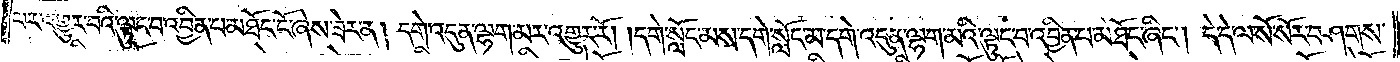པར་འགྱུར་བའི་ལྟུང་བ་འབྱིན་པ་མཐོང་ངོ་ཞེས་ཟེར་ན། དགེ་འདུན་ལྷག་མར་འགྱུར་རོ། །དགེ་སློང་མས་དགེ་སློང་མ་དགེ་འདུན་ལྷག་མའི་ལྟུང་བ་འབྱིན་པ་མཐོང་ཞིང༌། དེ་དེ་ལ་སོ་སོར་བཤགས་
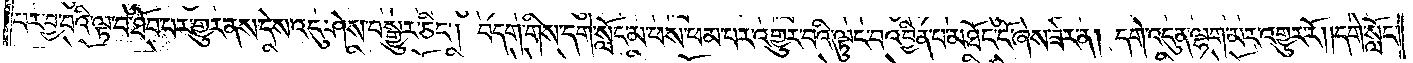པར་བྱ་བའི་ལྟ་བ་ཐོབ་པར་གྱུར་ནས་དེས་འདུ་ཤེས་བསྒྱུར་ཅིང༌། བདག་གིས་དགེ་སློང་མ་ཕས་ཕམ་པར་འགྱུར་བའི་ལྟུང་བ་འབྱིན་པ་མཐོང་ངོ་ཞེས་ཟེར་ན། དགེ་འདུན་ལྷག་མར་འགྱུར་རོ། །དགེ་སློང་
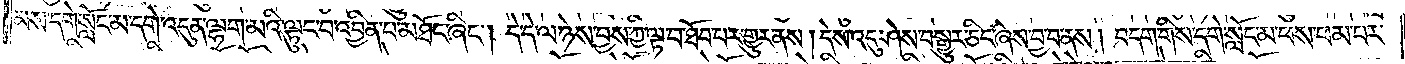མས་དགེ་སློང་མ་དགེ་འདུན་ལྷག་མའི་ལྟུང་བ་འབྱིན་པ་མཐོང་ཞིང༌། དེ་དེ་ལ་ཉེས་བྱས་ཀྱི་ལྟ་བ་ཐོབ་པར་འགྱུར་ནས། དེས་འདུ་ཤེས་བསྒྱུར་ཅིང་ཞེས་བྱ་བ་ནས། བདག་གིས་དགེ་སློང་མ་ཕས་ཕམ་པར་
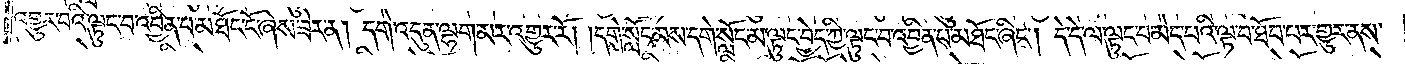འགྱུར་བའི་ལྟུང་བ་འབྱིན་པ་མཐོང་ངོ་ཞེས་ཟེར་ན། དགེ་འདུན་ལྷག་མར་འགྱུར་རོ། །དགེ་སློང་མས་དགེ་སློང་མ་ལྟུང་བྱེད་ཀྱི་ལྟུང་བ་འབྱིན་པ་མཐོང་ཞིང༌། དེ་དེ་ལ་ལྟུང་བ་མེད་པའི་ལྟ་བ་ཐོབ་པར་གྱུར་ནས་
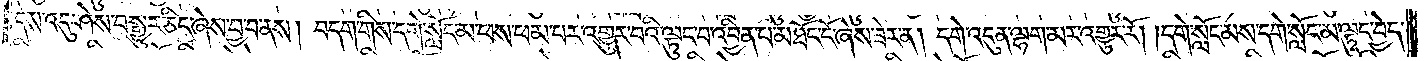དེས་འདུ་ཤེས་བསྒྱུར་ཅིང་ཞེས་བྱ་བ་ནས། བདག་གིས་དགེ་སློང་མ་ཕས་ཕམ་པར་འགྱུར་བའི་ལྟུང་བ་འབྱིན་པ་མཐོང་ངོ་ཞེས་ཟེར་ན། དགེ་འདུན་ལྷག་མར་འགྱུར་རོ། །དགེ་སློང་མས་དགེ་སློང་མ་ལྟུང་བྱེད་
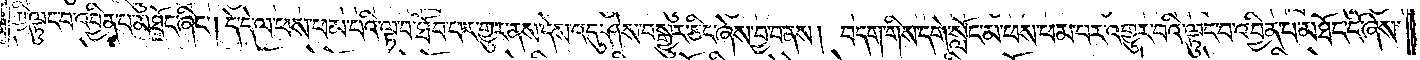ཀྱི་ལྟུང་བ་འབྱིན་པ་མཐོང་ཞིང༌། དེ་དེ་ལ་ཕས་ཕམ་པའི་ལྟ་བ་ཐོབ་པར་གྱུར་ནས་དེས་འདུ་ཤེས་བསྒྱུར་ཅིང་ཞེས་བྱ་བ་ནས། བདག་གིས་དགེ་སློང་མ་ཕས་ཕམ་པར་འགྱུར་བའི་ལྟུང་བ་འབྱིན་པ་མཐོང་ངོ་ཞེས་
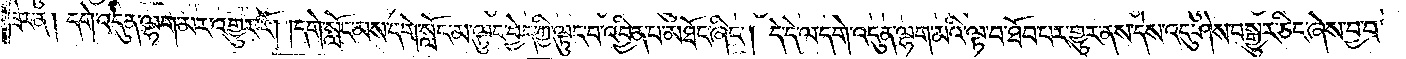ཟེར་ན། དགེ་འདུན་ལྷག་མར་འགྱུར་རོ། །དགེ་སློང་མས་དགེ་སློང་མ་ལྟུང་བྱེད་ཀྱི་ལྟུང་བ་འབྱིན་པ་མཐོང་ཞིང༌། དེ་དེ་ལ་དགེ་འདུན་ལྷག་མའི་ལྟ་བ་ཐོབ་པར་གྱུར་ནས་དེས་འདུ་ཤེས་བསྒྱུར་ཅིང་ཞེས་བྱ་བ་
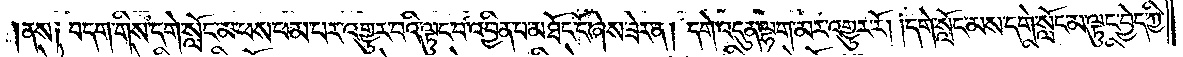ནས། བདག་གིས་དགེ་སློང་མ་ཕས་ཕམ་པར་འགྱུར་བའི་ལྟུང་བ་འབྱིན་པ་མཐོང་ངོ་ཞེས་ཟེར་ན། དགེ་འདུན་ལྷག་མར་འགྱུར་རོ། །དགེ་སློང་མས་དགེ་སློང་མ་ལྟུང་བྱེད་ཀྱི་
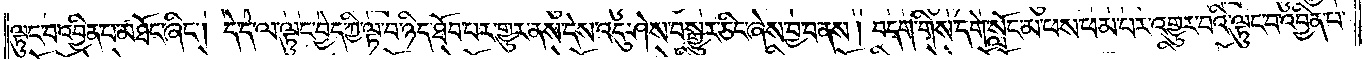ལྟུང་བ་འབྱིན་པ་མཐོང་ཞིང༌། དེ་དེ་ལ་ལྟུང་བྱེད་ཀྱི་ལྟ་བ་ཉིད་ཐོབ་པར་གྱུར་ནས་དེས་འདུ་ཤེས་བསྒྱུར་ཅིང་ཞེས་བྱ་བ་ནས། བདག་གིས་དགེ་སློང་མ་ཕས་ཕམ་པར་འགྱུར་བའི་ལྟུང་བ་འབྱིན་པ་
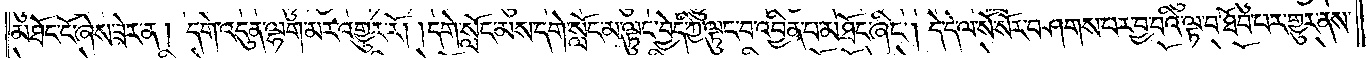མཐོང་ངོ་ཞེས་ཟེར་ན། དགེ་འདུན་ལྷག་མར་འགྱུར་རོ། །དགེ་སློང་མས་དགེ་སློང་མ་ལྟུང་བྱེད་ཀྱི་ལྟུང་བ་འབྱིན་པ་མཐོང་ཞིང༌། དེ་དེ་ལ་སོ་སོར་བཤགས་པར་བྱ་བའི་ལྟ་བ་ཐོབ་པར་གྱུར་ནས་
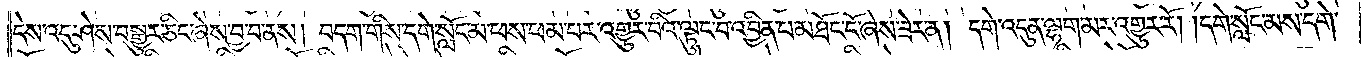དེས་འདུ་ཤེས་བསྒྱུར་ཅིང་ཞེས་བྱ་བ་ནས། བདག་གིས་དགེ་སློང་མ་ཕས་ཕམ་པར་འགྱུར་བའི་ལྟུང་བ་འབྱིན་པ་མཐོང་ངོ་ཞེས་ཟེར་ན། དགེ་འདུན་ལྷག་མར་འགྱུར་རོ། །དགེ་སློང་མས་དགེ་
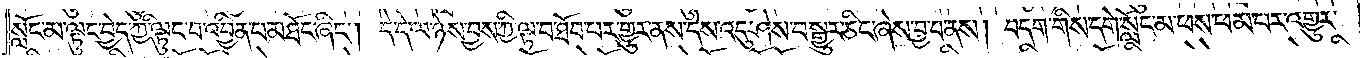སློང་མ་ལྟུང་བྱེད་ཀྱི་ལྟུང་བ་འབྱིན་པ་མཐོང་ཞིང༌། དེ་དེ་ལ་ཉེས་བྱས་ཀྱི་ལྟ་བ་ཐོབ་པར་གྱུར་ནས་དེས་འདུ་ཤེས་བསྒྱུར་ཅིང་ཞེས་བྱ་བ་ནས། བདག་གིས་དགེ་སློང་མ་ཕས་ཕམ་པར་འགྱུར་
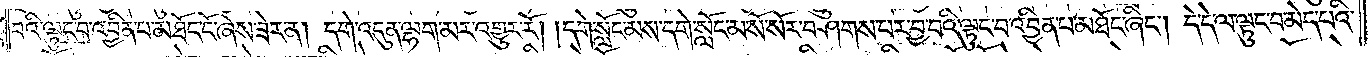བའི་ལྟུང་བ་འབྱིན་པ་མཐོང་ངོ་ཞེས་ཟེར་ན། དགེ་འདུན་ལྷག་མར་འགྱུར་རོ། །དགེ་སློང་མས་དགེ་སློང་མ་སོ་སོར་བཤགས་པར་བྱ་བའི་ལྟུང་བ་འབྱིན་པ་མཐོང་ཞིང༌། དེ་དེ་ལ་ལྟུང་བ་མེད་པའི་
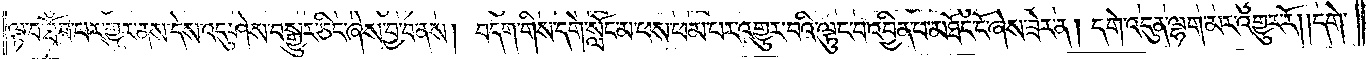ལྟ་བ་ཐོབ་པར་གྱུར་ནས་དེས་འདུ་ཤེས་བསྒྱུར་ཅིང་ཞེས་བྱ་བ་ནས། བདག་གིས་དགེ་སློང་མ་ཕས་ཕམ་པར་འགྱུར་བའི་ལྟུང་བ་འབྱིན་པ་མཐོང་ངོ་ཞེས་ཟེར་ན། དགེ་འདུན་ལྷག་མར་འགྱུར་རོ། །དགེ་
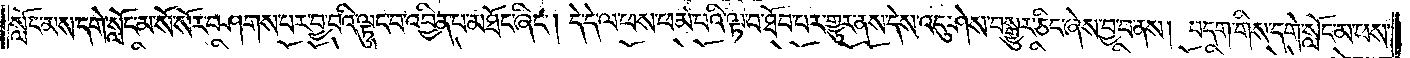སློང་མས་དགེ་སློང་མ་སོ་སོར་བཤགས་པར་བྱ་བའི་ལྟུང་བ་འབྱིན་པ་མཐོང་ཞིང༌། དེ་དེ་ལ་ཕས་ཕམ་པའི་ལྟ་བ་ཐོབ་པར་གྱུར་ནས་དེས་འདུ་ཤེས་བསྒྱུར་ཅིང་ཞེས་བྱ་བ་ནས། བདག་གིས་དགེ་སློང་མ་ཕས་
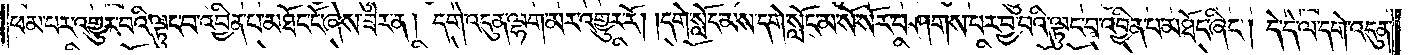ཕམ་པར་འགྱུར་བའི་ལྟུང་བ་འབྱིན་པ་མཐོང་ངོ་ཞེས་ཟེར་ན། དགེ་འདུན་ལྷག་མར་འགྱུར་རོ། །དགེ་སློང་མས་དགེ་སློང་མ་སོ་སོར་བཤགས་པར་བྱ་བའི་ལྟུང་བ་འབྱིན་པ་མཐོང་ཞིང༌། དེ་དེ་ལ་དགེ་འདུན་
